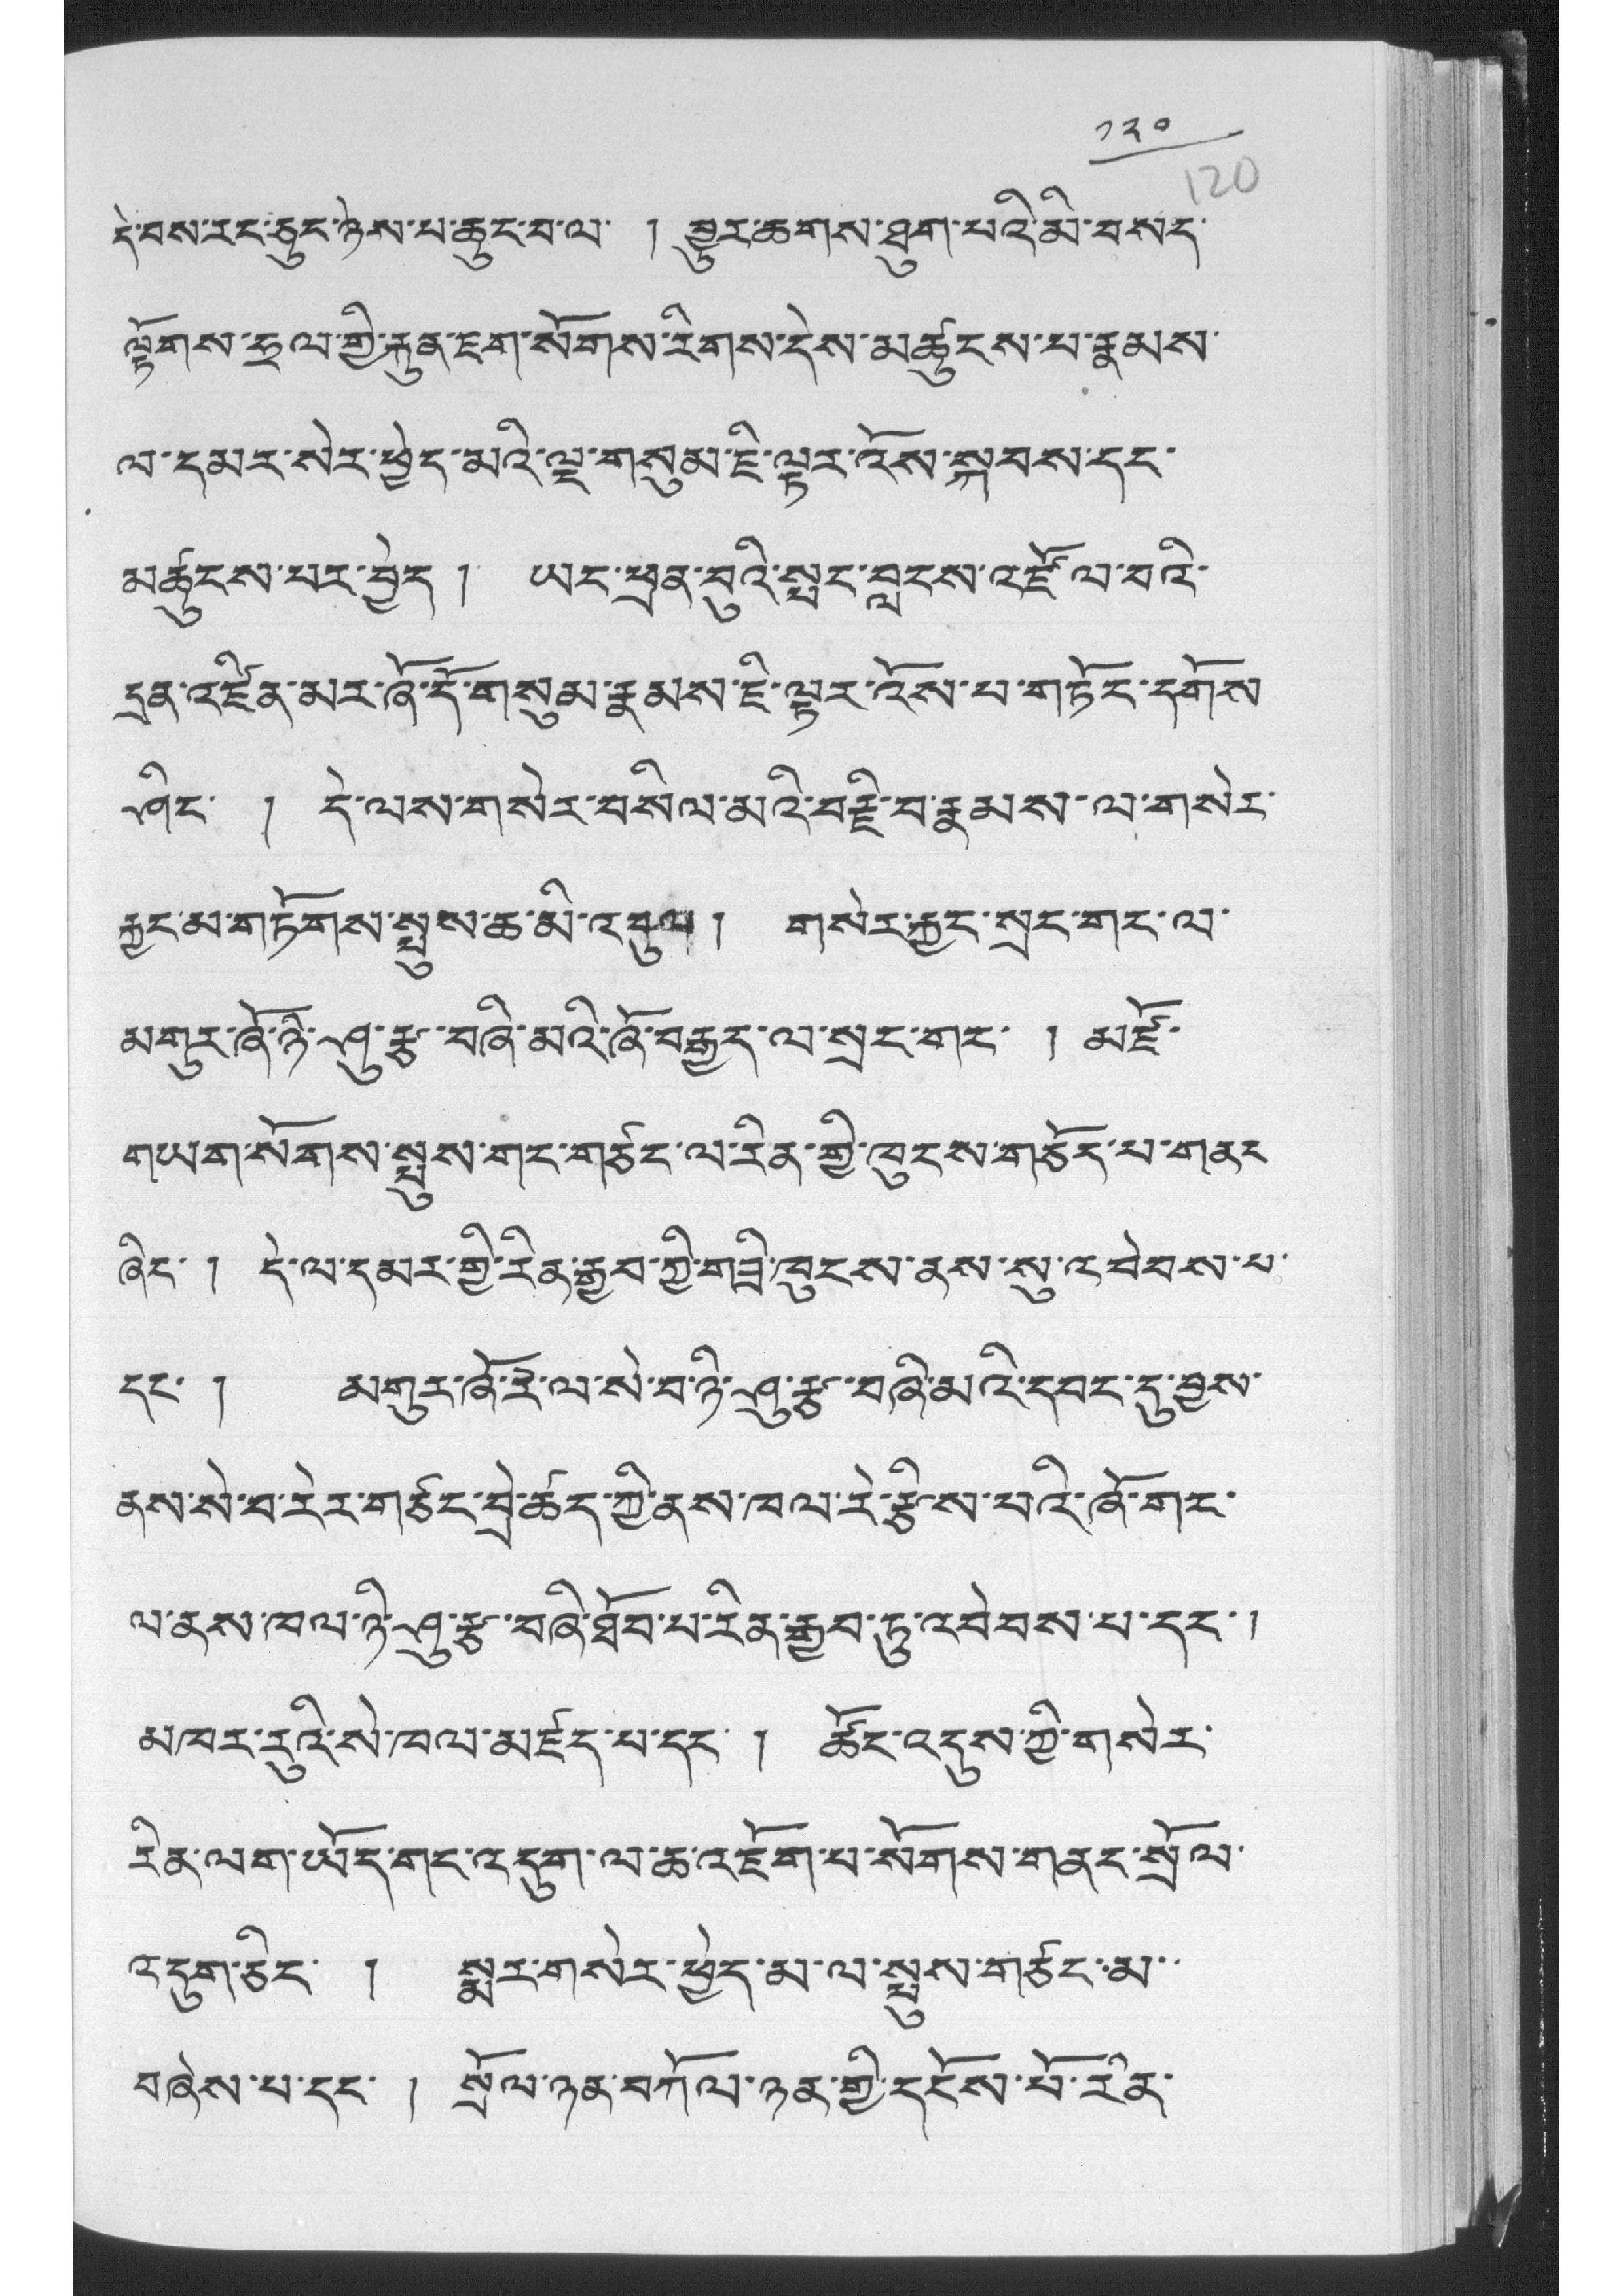༡༢༠
དེ་བས་རང་ཅུང་ཉེས་པ་ཆུང་བ་ལ་ ། བྱུར་ཆགས་ཐུག་པའི་མི་བསད་
ལྟོགས་ཧྲལ་གྱི་རྐུན་ཇག་སོགས་རིགས་དེས་མཚུངས་པ་རྣམས་
ལ་དམར་སེར་ཕྱེད་མའི་ལྔ་གསུམ་ཇི་ལྟར་འོས་སྐབས་དང་
མཚུངས་པར་བྱེད ། ཡང་ཕྲན་བུའི་སྤང་བླངས་འཛོལ་བའི་
དྲན་འཛིན་མར་ཞོ་དོ་གསུམ་རྣམས་ཇི་ལྟར་འོས་པ་གཏོང་དགོས་
ཤིང་ ། དེ་ལས་གསེར་བསིལ་མའི་བརྗི་བ་རྣམས་ལ་གསེར་
རྐྱང་མ་གཏོགས་སྤུས་ཆ་མི་འབུལ། གསེར་རྐྱང་སྲང་གང་ལ་
མགུར་ཞོ་ཉི་ཤུ་རྩ་བཞི་མའི་ཞོ་བརྒྱད་ལ་སྲང་གང་ ། མཛོ་
གཡག་སོགས་སྤུས་གང་གཙང་ལ་རིན་གྱི་ཁུངས་གཅོད་པ་གནང་
ཞིང་ ། དེ་ལ་དམར་གྱི་རིན་རྒྱབ་ཀྱི་གཟི་ཁུངས་ནས་སུ་འབེབས་པ་
དང་ ། མགུར་ཞོ་རེ་ལ་སེ་བ་ཉི་ཤུ་རྩ་བཞི་མིའི་དབང་དུ་བྱས་
ནས་སེ་བ་རེར་གཙང་བྲེ་ཚད་ཀྱི་ནས་ཁལ་རེ་རྩིས་པའི་ཞོ་གང་
ལ་ནས་ཁལ་ཉི་ཤུ་རྩ་བཞི་ཐོབ་པ་རིན་རྒྱབ་ཏུ་འབེབས་པ་དང་།
མཁར་རུའི་སེ་ཁལ་མཛད་པ་དང་ ། ཚོང་འདུས་ཀྱི་གསེར་
རིན་ལག་ཡོད་གང་འདུག་ལ་ཆ་འཇོག་པ་སོགས་གནང་སྲོལ་
འདུག་ཅིང་ ། སྨར་གསེར་ཕྱེད་མ་ལ་སྤུས་གཙང་མ་་
བཞེས་པ་དང་ ། སྲོལ་ཉན་བཀོལ་ཉན་གྱི་དངོས་པོ་རིན་
